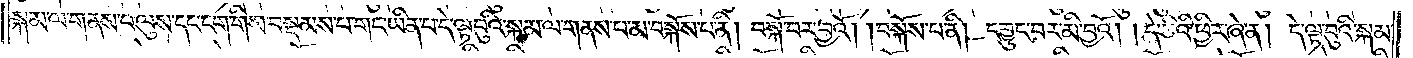སྐམ་ལ་གནས་པ་ལུས་དང་ངག་གིས་བསྡམས་པ་གང་ཡིན་པ་དེ་ལྟ་བུའི་སྐམ་ལ་གནས་པ་མ་བསྐོས་པ་ནི། བསྐོ་བར་བྱའོ། །བསྐོས་པ་ནི། དབྱུང་བར་མི་བྱའོ། །དེ་ཅིའི་ཕྱིར་ཞེ་ན། དེ་ལྟ་བུའི་སྐམ་
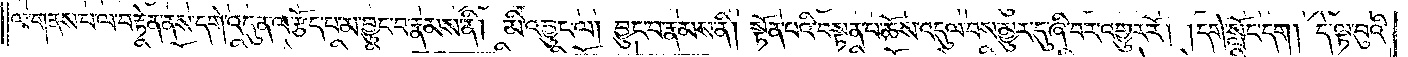ལ་གནས་པ་ལ་བརྟེན་ནས་དགེ་འདུན་ལ་རྩོད་པ་མ་བྱུང་བ་རྣམས་ནི། མི་འབྱུང་ལ། བྱུང་བ་རྣམས་ནི། སྟོན་པའི་བསྟན་པ་ཆོས་འདུལ་བས་མྱུར་དུ་ཞི་བར་འགྱུར་རོ། །དགེ་སློང་དག །དེ་ལྟ་བུའི་
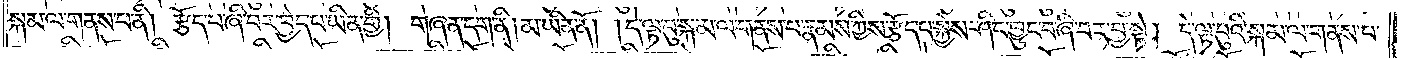སྐམ་ལ་གནས་པ་ནི། རྩོད་པ་ཞི་བར་བྱེད་པ་ཡིན་གྱི། གཞན་དག་ནི། མ་ཡིན་ནོ། །དེ་ལྟ་བུ་སྐམ་ལ་གནས་པ་རྣམས་ཀྱིས་རྩོད་པ་སྐྱེས་ཤིང་བྱུང་བ་ཞི་བར་བྱ་སྟེ། དེ་ལྟ་བུའི་སྐམ་ལ་གནས་པ་
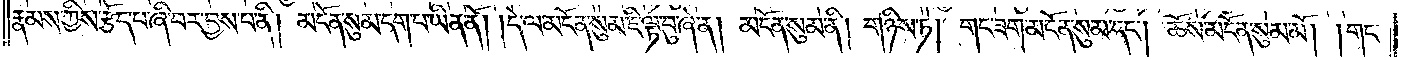རྣམས་ཀྱིས་རྩོད་པ་ཞི་བར་བྱས་པ་ནི། མངོན་སུམ་དག་པ་ཡིན་ནོ། །དེ་ལ་མངོན་སུམ་ཇི་ལྟ་བུ་ཞེ་ན། མངོན་སུམ་ནི། གཉིས་ཏེ། གང་ཟག་མངོན་སུམ་དང༌། ཆོས་མངོན་སུམ་མོ། །གང་
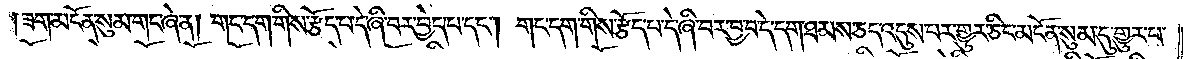།ཟག་མངོན་སུམ་གང་ཞེ་ན། གང་དག་གིས་རྩོད་པ་དེ་ཞི་བར་བྱེད་པ་དང༌། གང་དག་གིས་རྩོད་པ་དེ་ཞི་བར་བྱ་བ་དེ་དག་ཐམས་ཅད་འདུས་པར་གྱུར་ཅིང་མངོན་སུམ་དུ་གྱུར་པ་
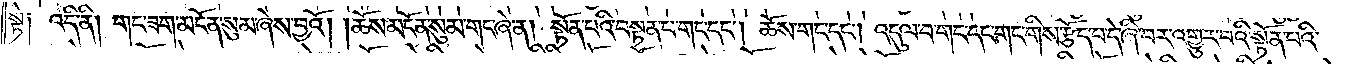སྟེ༑ འདི་ནི། གང་ཟག་མངོན་སུམ་ཞེས་བྱའོ། །ཆོས་མངོན་སུམ་གང་ཞེ་ན། སྟོན་པའི་བསྟན་པ་གང་དང༌། ཆོས་གང་དང༌། འདུལ་བ་གང་དང་གང་གིས་རྩོད་པ་དེ་ཞི་བར་འགྱུར་བའི་སྟོན་པའི་
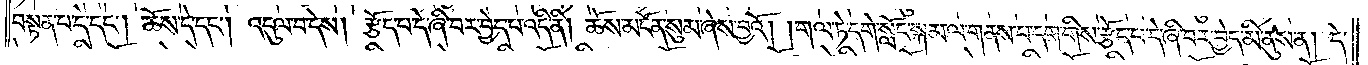བསྟན་པ་དེ་དང༌། ཆོས་དེ་དང༌། འདུལ་བ་དེས། རྩོད་པ་དེ་ཞི་བར་བྱེད་པ་འདི་ནི། ཆོས་མངོན་སུམ་ཞེས་བྱའོ། །གལ་ཏེ་དགེ་སློང་སྐམ་ལ་གནས་པ་དག་གིས་རྩོད་པ་དེ་ཞི་བར་བྱེད་མི་ནུས་ན། དེ་
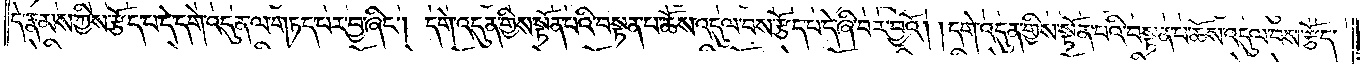དེ་རྣམས་ཀྱིས་རྩོད་པ་དེ་དགེ་འདུན་ལ་གཏད་པར་བྱ་ཞིང༌། དགེ་འདུན་གྱིས་སྟོན་པའི་བསྟན་པ་ཆོས་འདུལ་བས་རྩོད་པ་དེ་ཞི་བར་བྱའོ། །དགེ་འདུན་གྱིས་སྟོན་པའི་བསྟན་པ་ཆོས་འདུལ་བས་རྩོད་
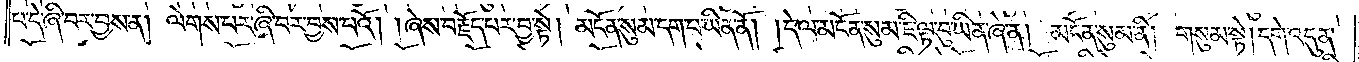པ་དེ་ཞི་བར་བྱས་ན། ལེགས་པར་ཞི་བར་བྱས་པའོ། །ཞེས་བརྗོད་པར་བྱ་སྟེ། མངོན་སུམ་དག་པ་ཡིན་ནོ། །དེ་ལ་མངོན་སུམ་ཇི་ལྟ་བུ་ཡིན་ཞེ་ན། མངོན་སུམ་ནི། གསུམ་སྟེ། དགེ་འདུན་
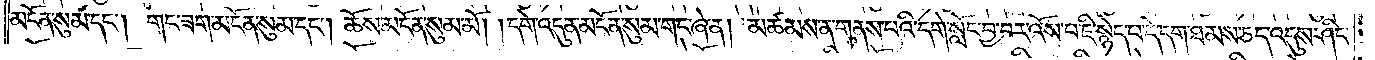མངོན་སུམ་དང༌། གང་ཟག་མངོན་སུམ་དང༌། ཆོས་མངོན་སུམ་མོ། །དགེ་འདུན་མངོན་སུམ་གང་ཞེ་ན། མཚམས་ན་གནས་པའི་དགེ་སློང་བྱ་བར་འོས་པ་ཇི་སྙེད་པ་དེ་དག་ཐམས་ཅད་འདུས་ཤིང་
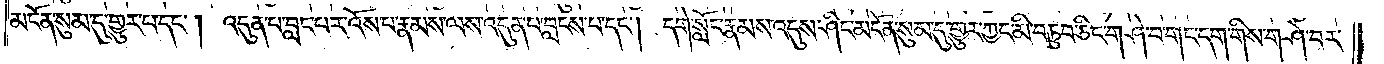མངོན་སུམ་དུ་གྱུར་པ་དང༌། འདུན་པ་བླང་བར་འོས་པ་རྣམས་ལས་འདུན་པ་བླངས་པ་དང༌། དགེ་སློང་རྣམས་འདུས་ཤིང་མངོན་སུམ་དུ་གྱུར་ཀྱང་མི་བཏུབ་ཅིང་གཤེ་བ་གང་དག་གིས་གཤེ་བར་
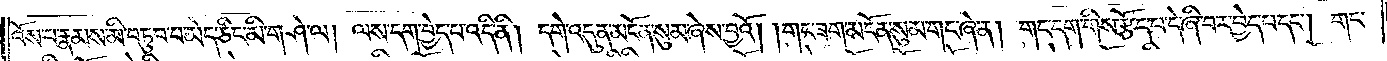འོས་པ་རྣམས་མི་བཏུབ་པ་མེད་ཅིང་མི་གཤེ་ལ། ལས་དག་བྱེད་པ་འདི་ནི། དགེ་འདུན་མངོན་སུམ་ཞེས་བྱའོ། །གང་ཟག་མངོན་སུམ་གང་ཞེ་ན། གང་དག་གིས་རྩོད་པ་དེ་ཞི་བར་བྱེད་པ་དང༌། གང་
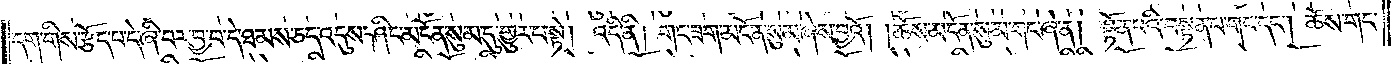དག་གིས་རྩོད་པ་དེ་ཞི་བར་བྱ་བ་དེ་ཐམས་ཅད་འདུས་ཤིང་མངོན་སུམ་དུ་གྱུར་པ་སྟེ། འདི་ནི། གང་ཟག་མངོན་སུམ་ཞེས་བྱའོ། །ཆོས་མངོན་སུམ་གང་ཞེ་ན། སྟོན་པའི་བསྟན་པ་གང་དང༌། ཆོས་གང་
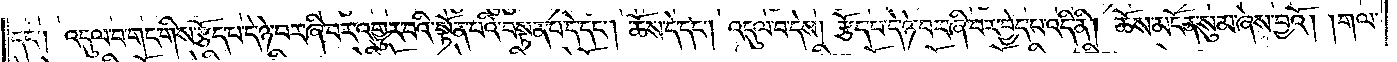དང༌། འདུལ་བ་གང་གིས་རྩོད་པ་དེ་ཉེ་བར་ཞི་བར་འགྱུར་བའི་སྟོན་པའི་བསྟན་པ་དེ་དང༌། ཆོས་དེ་དང༌། འདུལ་བ་དེས། རྩོད་པ་དེ་ཉེ་བར་ཞི་བར་བྱེད་པ་འདི་ནི། ཆོས་མངོན་སུམ་ཞེས་བྱའོ། །གལ་
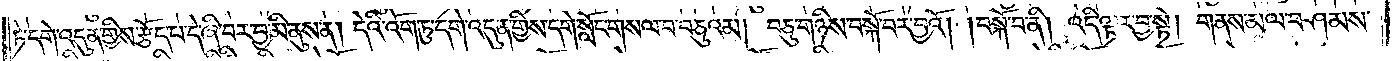ཏེ་དགེ་འདུན་གྱིས་རྩོད་པ་དེ་ཞི་བར་བྱ་མི་ནུས་ན། དེའི་འོག་ཏུ་དགེ་འདུན་གྱིས་དགེ་སློང་གསལ་བ་བཅུའམ། བཅུ་གཉིས་བསྐོ་བར་བྱའོ། །བསྐོ་བ་ནི། འདི་ལྟར་བྱ་སྟེ། གནས་མལ་བཤམས་
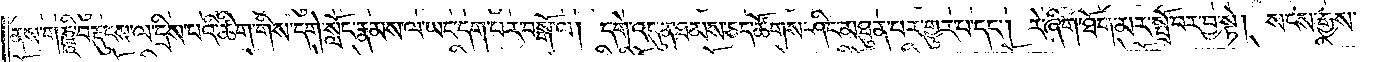ནས་གཎྜཱི་བརྡུངས་ལ་དྲིས་པའི་ཚིག་གིས་དགེ་སློང་རྣམས་ལ་ཡང་དག་པར་བསྒོ་ལ། དགེ་འདུན་ཐམས་ཅད་ཚོགས་ཤིང་མཐུན་པར་གྱུར་པ་དང༌། རེ་ཞིག་ཐོག་མར་སྤྲོ་བར་བྱ་སྟེ། སངས་རྒྱས་
